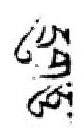དུག་ཅུ་
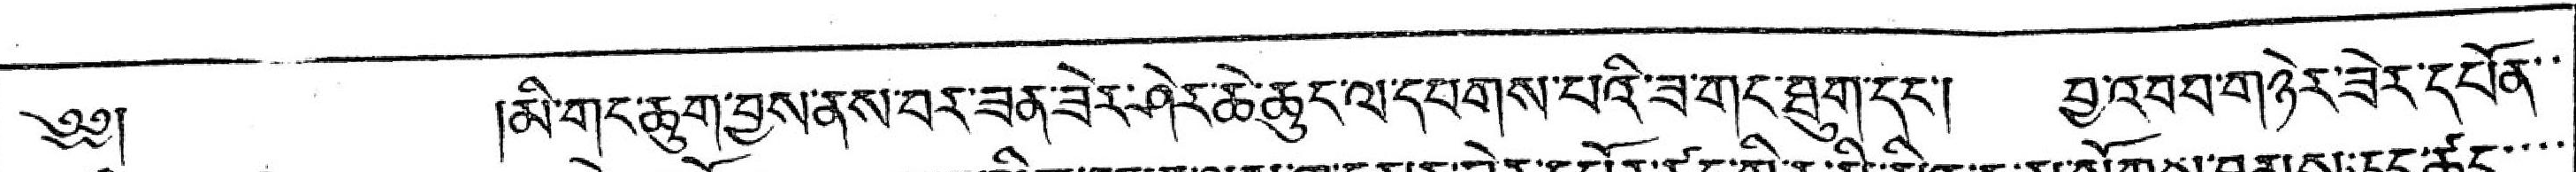༄༅།  །མི་གང་ཆུག་བྱས་ནས་བར་ཟན་ཟེར་ཤེར་ཆེ་ཆུང་ལ་དབགས་པའི་ཟ་གང་ཐུག་དང་། བྱ་འབབ་གཉེར་ཟེར་དཔོན་་
